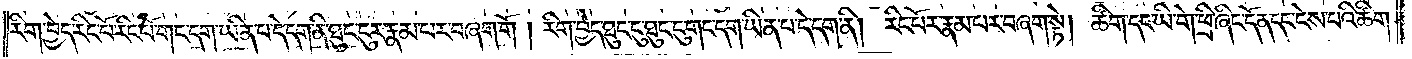རིག་བྱེད་རིང་པོ་རིང་པོ་གང་དག་ཡིན་པ་དེ་དག་ནི་ཐུང་ངུར་རྣམ་པར་བཞག་གོ། །རིག་བྱེད་ཐུང་ངུ་ཐུང་ངུ་གང་དག་ཡིན་པ་དེ་དག་ནི། རིང་པོར་རྣམ་པར་བཞག་སྟེ། ཚིག་དང་ཡི་གེ་ཕྲི་ཞིང་དོན་དང་ངེས་པའི་ཚིག་
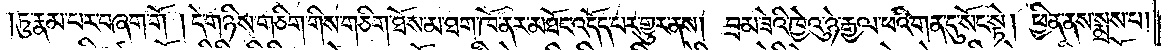ཏུ་རྣམ་པར་བཞག་གོ །དེ་གཉིས་གཅིག་གིས་གཅིག་ཐོས་མ་ཐག་ཁོ་ནར་མཐོང་འདོད་པར་གྱུར་ནས། བྲམ་ཟེའི་ཁྱེའུ་ཉེ་རྒྱལ་ཕའི་གན་དུ་སོང་སྟེ། ཕྱིན་ནས་སྨྲས་པ།
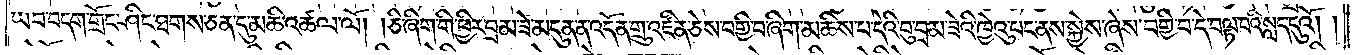ཡབ་བདག་གྲོང་ཤིང་ཐགས་ཅན་དུ་མཆི་འཚལ་ལོ། །ཅི་ཞིག་གི་ཕྱིར་བྲམ་ཟེ་མདུན་ན་འདོན་གྲུ་འཛིན་ཅེས་བགྱི་བ་ཞིག་མཆིས་པ་དེའི་བུ་བྲམ་ཟེའི་ཁྱེའུ་པང་ནས་སྐྱེས་ཞེས་བགྱི་བ་དེ་བལྟ་བའི་སླད་དུའོ། །
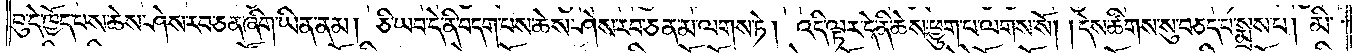བུ་དེ་ཁྱོད་པས་ཆེས་ཤེས་རབ་ཅན་ཞིག་ཡིན་ནམ། ཅི་ཡབ་དེ་ནི་བདག་པས་ཆེས་ཤེས་རབ་ཅན་མ་ལགས་ཏེ། འདི་ལྟར་དེ་ནི་ཆེས་ཕྱུག་པ་ལགས་སོ། །དེས་ཚིགས་སུ་བཅད་པ་སྨྲས་པ། མི་
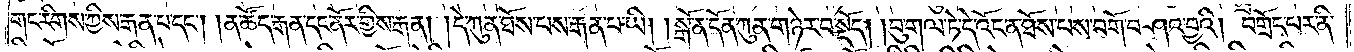གང་རིགས་ཀྱིས་རྒན་པ་དང༌། །ན་ཚོད་རྒན་དང་ནོར་གྱིས་རྒན། །དེ་ཀུན་ཐོས་པས་རྒན་པ་ཡི། །སྒོ་ན་དོན་ཀུན་གཉེར་བ་སྡོད། །བུ་གལ་ཏེ་དེ་འོང་ན་ཐོས་པས་བགོ་བཤའ་བྱའི། བགྲོད་པར་ནི་
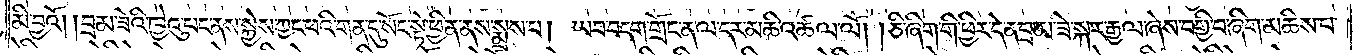མི་བྱའོ། །བྲམ་ཟེའི་ཁེའུ་པང་ནས་སྐྱེས་ཀྱང་ཕའི་གན་དུ་སོང་སྟེ་ཕྱིན་ནས་སྨྲས་པ། ཡབ་བདག་གྲོང་ན་ལ་དར་མཆི་འཚལ་ལོ། །ཅི་ཞིག་གི་ཕྱིར་དེ་ན་བྲམ་ཟེ་སྐར་རྒྱལ་ཞེས་བགྱི་བ་ཞིག་མཆིས་པ་
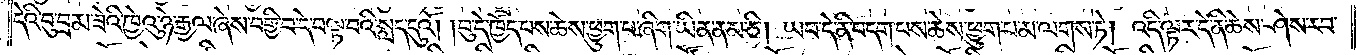དེའི་བུ་བྲམ་ཟེའི་ཁྱེའུ་ཉེ་རྒྱལ་ཞེས་བགྱི་བ་དེ་བལྟ་བའི་སླད་དུའོ། །བུ་དེ་ཁྱོད་པས་ཆེས་ཕྱུག་པ་ཞིག་ཡིན་ནམ་ཅི། ཡབ་དེ་ནི་བདག་པས་ཆེས་ཕྱུག་པ་མ་ལགས་ཏེ། འདི་ལྟར་དེ་ནི་ཆེས་ཤེས་རབ་
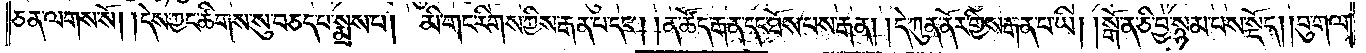ཅན་ལགས་སོ། །དེས་ཀྱང་ཚིགས་སུ་བཅད་པ་སྨྲས་པ། མི་གང་རིགས་ཀྱིས་རྒན་པ་དང༌། །ན་ཚོད་རྒན་དང་ཐོས་པས་རྒན། །དེ་ཀུན་ནོར་གྱིས་རྒན་པ་ཡི། །སྒོ་ན་ཅི་བྱ་སྙམ་པས་སྡོད། །བུ་གལ་
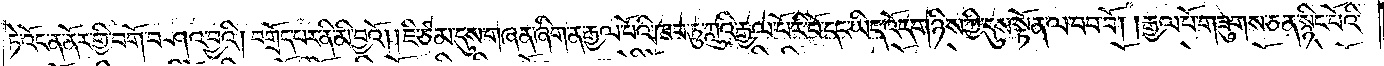ཏེ་འོང་ན་ནོར་གྱི་བགོ་བཤའ་བྱའི། བགྲོད་པར་ནི་མི་བྱའོ། །ཇི་ཙམ་དུས་གཞན་ཞིག་ན་རྒྱལ་པོའི་ཁབ་ཏུ་ཀླུའི་རྒྱལ་པོ་རི་བོ་དང་ཡིད་འོད་གཉིས་ཀྱི་དུས་སྟོན་ལ་བབ་བོ། །རྒྱལ་པོ་གཟུགས་ཅན་སྙིང་པོའི་
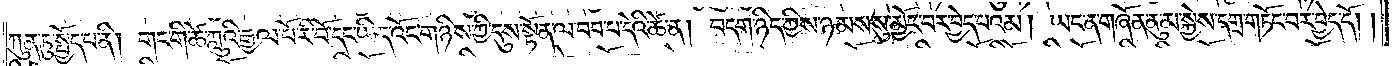ཀུན་ཏུ་སྤྱོད་པ་ནི། གང་གི་ཚེ་ཀླུའི་རྒྱལ་པོ་རི་བོ་དང་ཡིད་འོང་གཉིས་ཀྱི་དུས་སྟོན་ལ་བབ་པ་དེའི་ཚེ་ན། བདག་ཉིད་ཀྱིས་ཉམས་སུ་མྱོང་བར་བྱེད་པའམ། ཡང་ན་གཞོན་ནུ་མ་སྐྱེས་དགྲ་གཏོང་བར་བྱེད་དོ། །
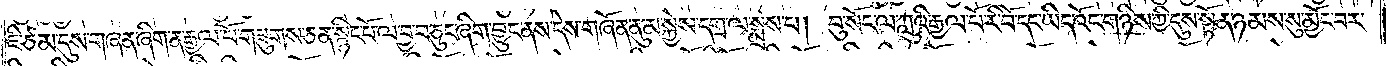ཇི་ཙམ་དུས་གཞན་ཞིག་ན་རྒྱལ་པོ་གཟུགས་ཅན་སྙིང་པོ་ལ་བྱ་བ་ཅུང་ཞིག་བྱུང་ནས་དེས་གཞོན་ནུ་མ་སྐྱེས་དགྲ་ལ་སྨྲས་པ། བུ་སོང་ལ་ཀླུའི་རྒྱལ་པོ་རི་བོ་དང་ཡིད་འོང་གཉིས་ཀྱི་དུས་སྟོང་ཉམས་སུ་མྱོང་བར་
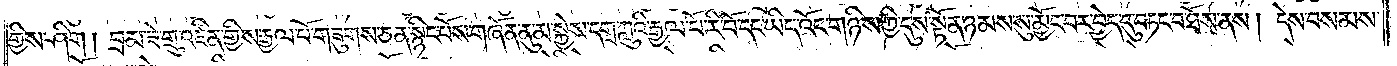གྱིས་ཤིག ། བྲམ་ཟེ་གྲུ་འཛིན་གྱིས་རྒྱལ་པོ་གཟུགས་ཅན་སྙིང་པོས་གཞོན་ནུ་མ་སྐྱེས་དགྲ་ཀླུའི་རྒྱལ་པོ་རི་བོ་དང་ཡིད་འོང་གཉིས་ཀྱི་དུས་སྟོན་ཉམས་སུ་མྱོང་བར་བྱེད་དུ་བཏང་བ་ཐོས་ནས། དེས་བསམས་
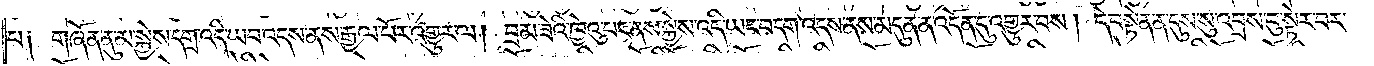པ༑ གཞོན་ནུ་མ་སྐྱེས་དགྲ་འདི་ཡབ་འདས་ནས་རྒྱལ་པོར་འགྱུར་ལ། བྲམ་ཟེའི་ཁྱེའུ་པང་ནས་སྐྱེས་འདི་ཡང་བདག་འདས་ནས་མདུན་ན་འདོན་དུ་འགྱུར་བས། དེ་བསྟེན་ན་དུས་སུ་འབྲས་བུ་སྟེར་བར་
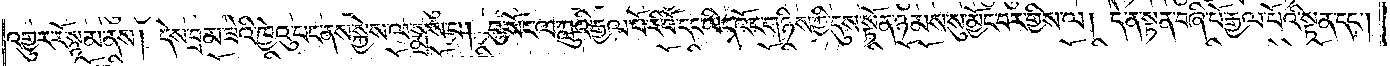འགྱུར་རོ་སྙམ་ནས། དེས་བྲམ་ཟེའི་ཁྱེའུ་པང་ནས་སྐྱེས་ལ་སྨྲས་པ། བུ་སོང་ལ་ཀླུའི་རྒྱལ་པོ་རི་བོ་དང་ཡིད་འོང་གཉིས་ཀྱི་དུས་སྟོན་ཉམས་སུ་མྱོང་བར་གྱིས་ལ། དེ་ན་སྟན་བཞི་པོ་རྒྱལ་པོའི་སྟན་དང༌།
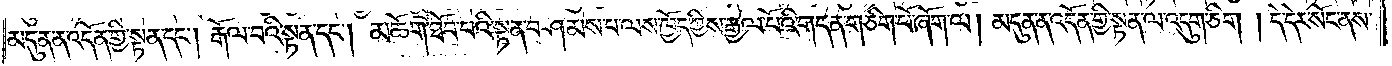མདུན་ན་འདོན་གྱི་སྟན་དང༌། རྒོལ་བའི་སྟན་དང༌། མཆོག་ཐོབ་པའི་སྟན་བཤམས་པ་ལས་ཁྱོད་ཀྱིས་རྒྱལ་པོའི་གདན་གཅིག་པོ་ཞོག་ལ། མདུན་ན་འདོན་གྱི་སྟན་ལ་འདུག་ཅིག །དེ་དེར་སོང་ནས་
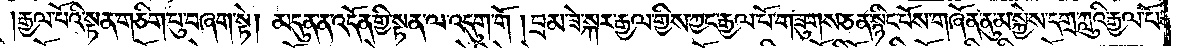རྒྱལ་པོའི་སྟན་གཅིག་པུ་བཞག་སྟེ། མདུན་ན་འདོན་གྱི་སྟན་ལ་འདུག་གོ །བྲམ་ཟེ་སྐར་རྒྱལ་གྱིས་ཀྱང་རྒྱལ་པོ་གཟུགས་ཅན་སྙིང་པོས་གཞོན་ནུ་མ་སྐྱེས་དགྲ་ཀླུའི་རྒྱལ་པོ་
